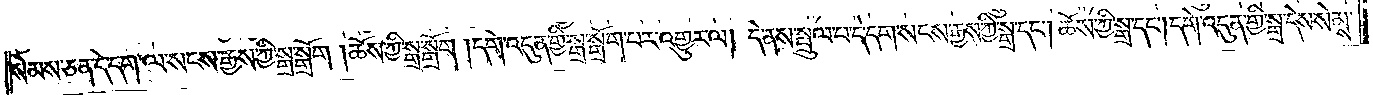སེམས་ཅན་དེ་དག་ལ་སངས་རྒྱས་ཀྱི་སྒྲ་སྒྲོག །ཆོས་ཀྱི་སྒྲ་སྒྲོག །དགེ་འདུན་གྱི་སྒྲ་སྒྲོག་པར་འགྱུར་ལ། དེ་ནས་སྤྲུལ་པ་དེ་དག་སངས་རྒྱས་ཀྱི་སྒྲ་དང༌། ཆོས་ཀྱི་སྒྲ་དང༌། དགེ་འདུན་གྱི་སྒྲ་དེས་སེམས་
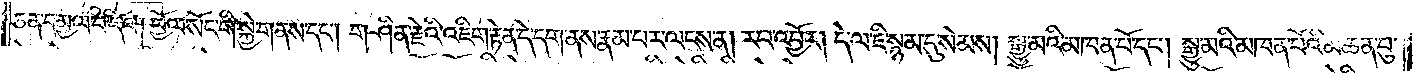ཅན་དམྱལ་བ་དང༌། བྱོལ་སོང་གི་སྐྱེ་གནས་དང༌། གཤིན་རྗེའི་འཇིག་རྟེན་དེ་དག་ནས་རྣམ་པར་ལངས་ན། རབ་འབྱོར། དེ་ལ་ཇི་སྙམ་དུ་སེམས། སྒྱུ་མའི་མཁན་པོ་དང༌། སྒྱུ་མའི་མཁན་པོའི་མཆན་བུ་
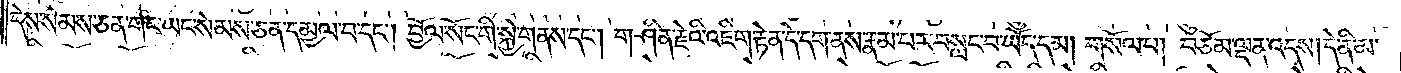དེས་སེམས་ཅན་གང་ཡང་སེམས་ཅན་དམྱལ་བ་དང༌། བྱོལ་སོང་གི་སྐྱེ་གནས་དང༌། གཤིན་རྗེའི་འཇིག་རྟེན་དེ་དག་ནས་རྣམ་པར་བསླང་བ་ཡོད་དམ། གསོལ་བ། བཅོམ་ལྡན་འདས། དེ་ནི་མ་
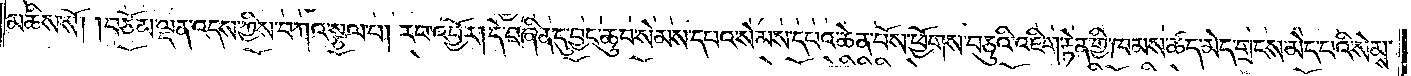མཆིས་སོ། །བཅོམ་ལྡན་འདས་ཀྱིས་བཀའ་སྩལ་པ། རབ་འབྱོར། དེ་བཞིན་དུ་བྱང་ཆུབ་སེམས་དཔའ་སེམས་དཔའ་ཆེན་པོས་ཕྱོགས་བཅུའི་འཇིག་རྟེན་གྱི་ཁམས་ཚད་མེད་གྲངས་མེད་པའི་སེམས་
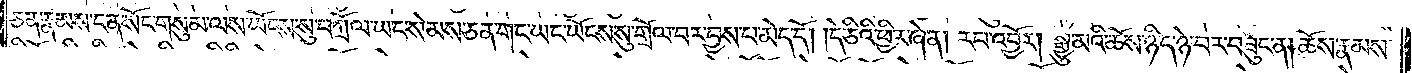ཅན་རྣམས་ངན་སོང་གསུམ་ལས་ཡོངས་སུ་བཀྲོལ་ཡང་སེམས་ཅན་གང་ཡང་ཡོངས་སུ་གྲོལ་བར་བྱས་པ་མེད་དོ། །དེ་ཅིའི་ཕྱིར་ཞེ་ན། རབ་འབྱོར། སྒྱུ་མའི་ཆོས་ཉིད་ཉེ་བར་བཟུང་ན། ཆོས་རྣམས་
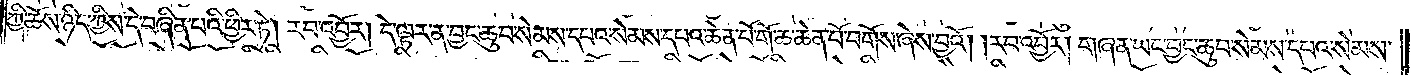ཀྱི་ཆོས་ཉིད་ཀྱིས་དེ་བཞིན་པའི་ཕྱིར་ཏེ། རབ་འབྱོར། དེ་ལྟར་ན་བྱང་ཆུབ་སེམས་དཔའ་སེམས་དཔའ་ཆེན་པོ་གོ་ཆ་ཆེན་པོ་བགོས་ཞེས་བྱའོ། །རབ་འབྱོར། གཞན་ཡང་བྱང་ཆུབ་སེམས་དཔའ་སེམས་
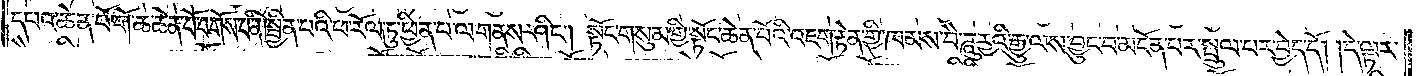དཔའ་ཆེན་པོ་གོ་ཆ་ཆེན་པོ་བགོས་པ་ནི། སྦྱིན་པའི་ཕ་རོལ་ཏུ་ཕྱིན་པ་ལ་གནས་ཤིང༌། སྟོང་གསུམ་གྱི་སྟོང་ཆེན་པོའི་འཇིག་རྟེན་གྱི་ཁམས་བཻ་ཌཱུཪྻའི་རྒྱུ་ལས་བྱུང་བ་མངོན་པར་སྤྲུལ་པར་བྱེད་དོ། །དེ་ལྟར་
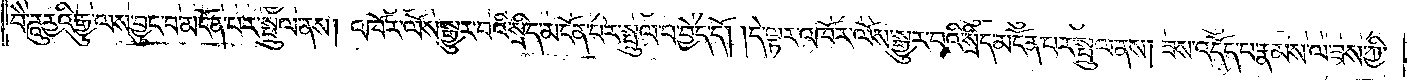བཻ་ཌཱུརྱའི་རྒྱུ་ལས་བྱུང་པ་མངོན་པར་སྤྲུལ་ནས། འཁོར་ལོས་སྒྱུར་བའི་སྲིད་མངོན་པར་སྤྲུལ་པ་བྱེད་དོ། །དེ་ལྟར་འཁོར་ལོས་སྒྱུར་བའི་སྲིད་མངོན་པར་སྤྲུལ་ནས། ཟས་འདོད་པ་རྣམས་ལ་ཟས་ཀྱི་
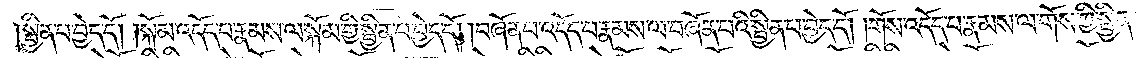སྦྱིན་པ་བྱེད་དོ། །སྐོམ་འདོད་པ་རྣམས་ལ་སྐོམ་གྱི་སྦྱིན་པ་བྱེད་དོ། །བཞོན་པ་འདོད་པ་རྣམས་ལ་བཞོན་པའི་སྦྱིན་པ་བྱེད་དོ། །གོས་འདོད་པ་རྣམས་ལ་གོས་ཀྱི་སྦྱིན་པ་བྱེད་
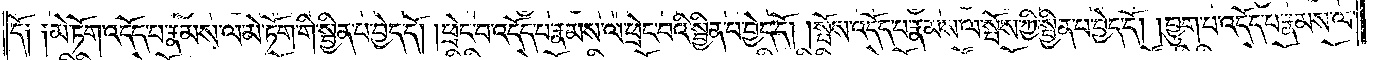དོ། །མེ་ཏོག་འདོད་པ་རྣམས་ལ་མེ་ཏོག་གི་སྦྱིན་པ་བྱེད་དོ། །ཕྲེང་བ་འདོད་པ་རྣམས་ལ་ཕྲེང་བའི་སྦྱིན་པ་བྱེད་དོ། །སྤོས་འདོད་པ་རྣམས་ལ་སྤོས་ཀྱི་སྦྱིན་པ་བྱེད་དོ། །བྱུག་པ་འདོད་པ་རྣམས་ལ་
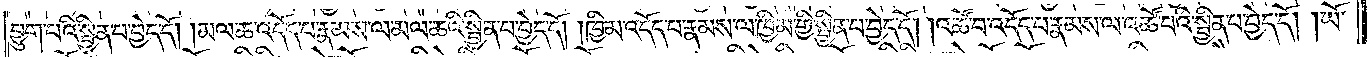བྱུག་པའི་སྦྱིན་པ་བྱེད་དོ། །མལ་ཆ་འདོད་པ་རྣམས་ལ་མལ་ཆའི་སྦྱིན་པ་བྱེད་དོ། །ཁྱིམ་འདོད་པ་རྣམས་ལ་ཁྱིམ་གྱི་སྦྱིན་པ་བྱེད་དོ། །འཚོ་བ་འདོད་པ་རྣམས་ལ་འཚོ་བའི་སྦྱིན་པ་བྱེད་དོ། །ཡོ་
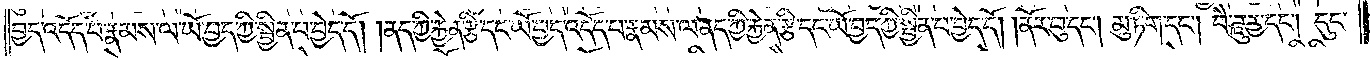བྱད་འདོད་པ་རྣམས་ལ་ཡོ་བྱད་ཀྱི་སྦྱིན་པ་བྱེད་དོ། །ནད་ཀྱི་རྐྱེན་རྩི་དང་ཡོ་བྱད་འདོད་པ་རྣམས་ལ་ནད་ཀྱི་རྐྱེན་རྩི་དང་ཡོ་བྱད་ཀྱི་སྦྱིན་པ་བྱེད་དོ། །ནོར་བུ་དང༌། མུ་ཏིག་དང༌། བཻ་ཌཱུརྱ་དང་། དུང་
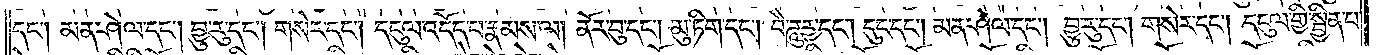དང༌། མན་ཤེལ་དང༌། བྱུ་རུ་དང༌། གསེར་དང༌། དངུལ་འདོད་པ་རྣམས་ལ། ནོར་བུ་དང༌། མུ་ཏིག་དང༌། བཻ་ཌཱུརྱ་དང༌། དུང་དང༌། མན་ཤེལ་དང༌། བྱུ་རུ་དང༌། གསེར་དང༌། དངུལ་གྱི་སྦྱིན་པ་
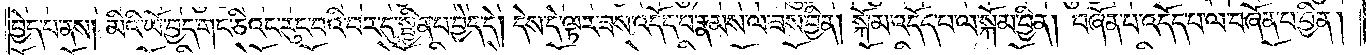བྱེད་པ་ནས། མིའི་ཡོ་བྱད་གང་ཅིའང་རུང་བའི་བར་དུ་སྦྱིན་པ་བྱེད་དེ། དེས་དེ་ལྟར་ཟས་འདོད་པ་རྣམས་ལ་ཟས་བྱིན། སྐོམ་འདོད་པ་ལ་སྐོམ་བྱིན། བཞོན་པ་འདོད་པ་ལ་བཞོན་པ་བྱིན།
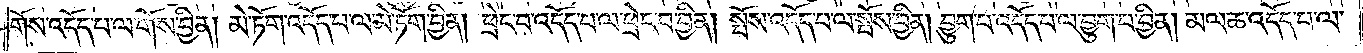གོས་འདོད་པ་ལ་གོས་བྱིན། མེ་ཏོག་འདོད་པ་ལ་མེ་ཏོག་བྱིན། ཕྲེང་བ་འདོད་པ་ལ་ཕྲེང་བ་བྱིན། སྤོས་འདོད་པ་ལ་སྤོས་བྱིན། བྱུག་པ་འདོད་པ་ལ་བྱུག་པ་བྱིན། མལ་ཆ་འདོད་པ་ལ་
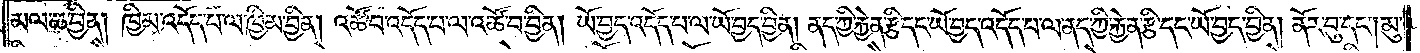མལ་ཆ་བྱིན། ཁྱིམ་འདོད་པ་ལ་ཁྱིམ་བྱིན། འཚོ་བ་འདོད་པ་ལ་འཚོ་བ་བྱིན། ཡོ་བྱད་འདོད་པ་ལ་ཡོ་བྱད་བྱིན། ནད་ཀྱི་རྐྱེན་རྩི་དང་ཡོ་བྱད་འདོད་པ་ལ་ནད་ཀྱི་རྐྱེན་རྩི་དང་ཡོ་བྱད་བྱིན། ནོར་བུ་དང༌། མུ་
